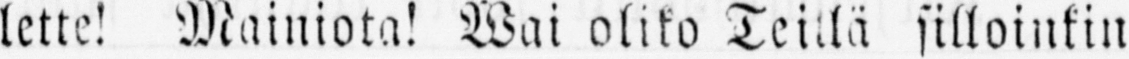lette! Mainiota! Wai oliko Teillä silloinkin
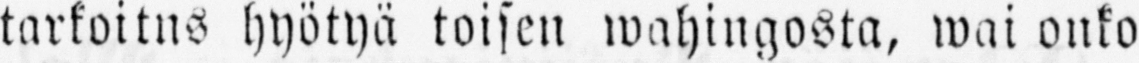tarkoitus hyötyä toisen wahingosta, wai onko
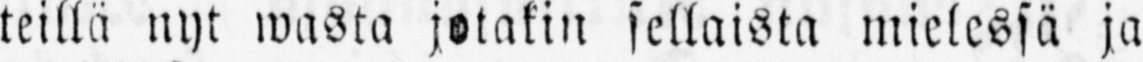teillä nyt wasta jotakin sellaista mielessä ja
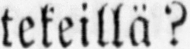tekeillä?
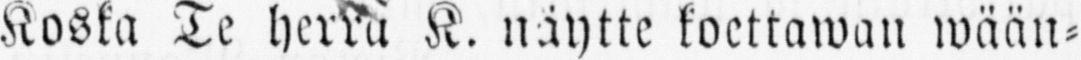Koska Te herra K. näytte koettawan wään-
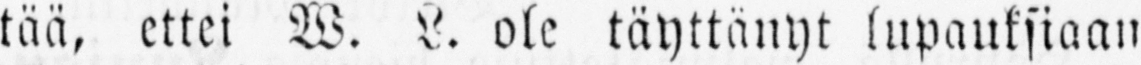tää, ettei W. L. ole täyttänyt lupauksiaan
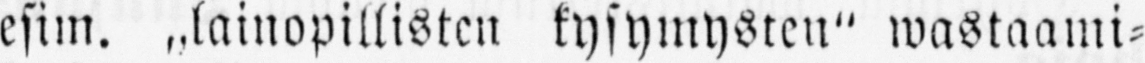esim. „lainopillisten kysymysten" wastaami-
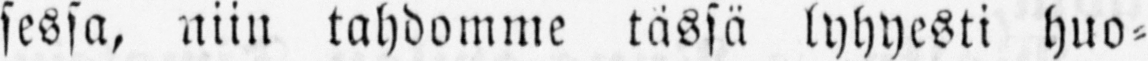sessa, niin tahdomme tässä lyhyesti huo-
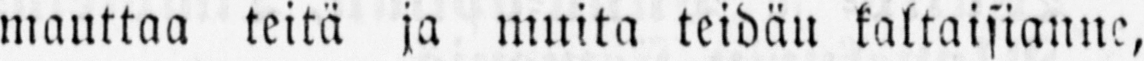mauttaa teitä ja muita teidän kaltaisianne,
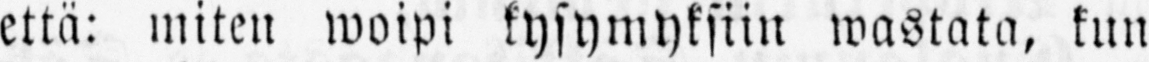että: miten woipi kysymyksiin wastata, kun
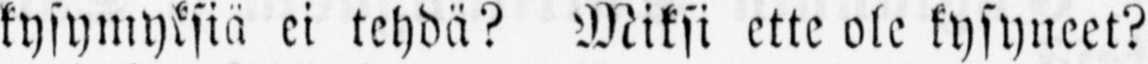kysymyksiä ei tehdä? Miksi ette ole kysyneet?
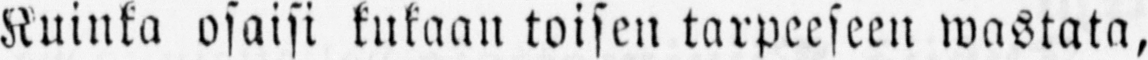Kuinka osaisi kukaan toisen tarpeeseen wastata,
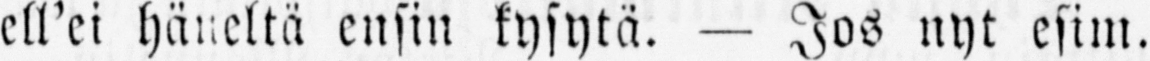ell’ei häneltä ensin kysytä. — Jos nyt esim.
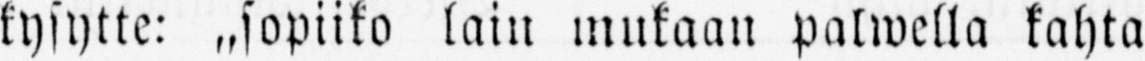kysytte: „sopiiko lain mukaan palwella kahta
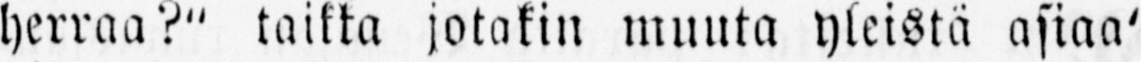herraa?" taikka jotakin muuta yleistä asiaa'
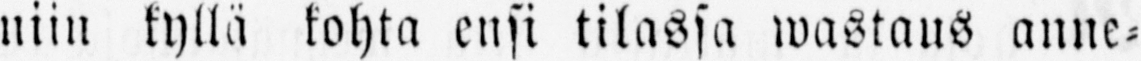niin kyllä kohta ensi tilassa wastaus anne-
